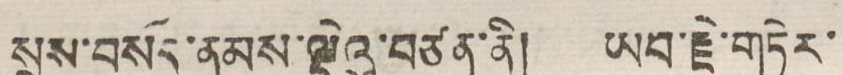སྲས་བསོད་ནམས་ལྡེའུ་བཙན་ནི། ཡབ་རྗེ་གཏེར་
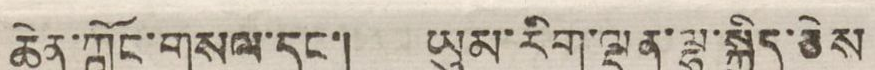ཆེན་ཀློང་གསལ་དང་། ཡུམ་རིག་ལྡན་ལྷ་སྐྱིད་ཅེས
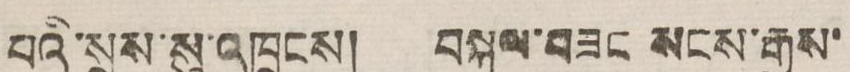པའི་སྲས་སུ་འཁྲུངས། བསྐལ་བཟང སངས་རྒྱས་
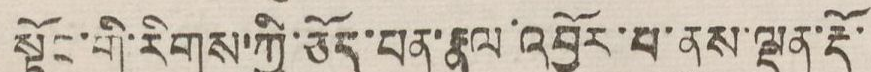སྟོང་གི་རིགས་ཀྱི་ཅོད་པན་རྣལ་འབྱོར་པ་ནུས་ལྡན་རྡོ་
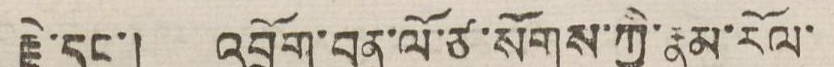རྗེ་དང་། འབྲོག་བན་ལོ་ཙ་སོགས་ཀྱི་རྣམ་རོལ་
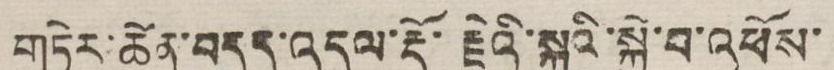གཏེར་ཆེན་བདུད་འདུལ་རྡོ་རྗེའི་སྐུའི་སྐྱེ་བ་འཕོས་
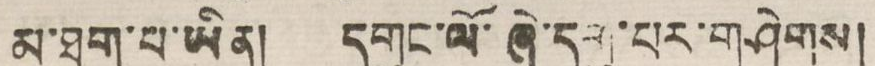མ་ཐག་པ་ཡིན། དགུང་ལོ་ཞེ་དགུ་པར་གཤེགས།
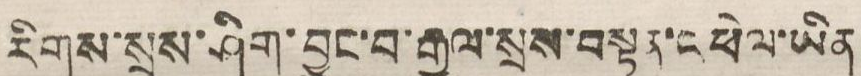རིགས་སྲས་ཤིག་བྱུང་བ་རྒྱལ་སྲས་བསྟན་འཕེལ་ཡིན
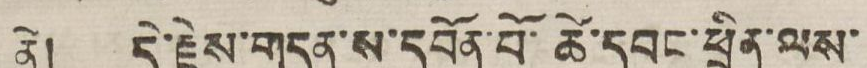ནེ། དེ་རྗེས་གདན་ས་དཔོན་པོ་ཚེ་དབང་ཕྲིན་ལས་
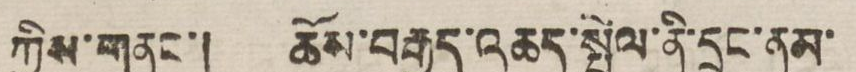ཀྱིས་གནང་། ཆོས་བརྒྱད་འཆད་སྤེལ་ནི་དྲུང་ནམ་
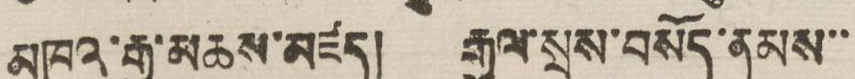མཁའ་རྒྱ་མཆས་མཛད། རྒྱལ་སྲས་བསོད་ནམས་་
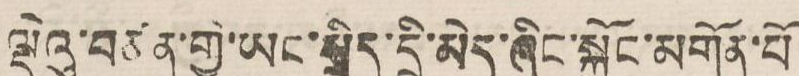ལྡེའུ་བཙན་གྱི་ཡང་སྲིད་དྲི་མེད་ཞིང་སྐྱོང་མགོན་པོ
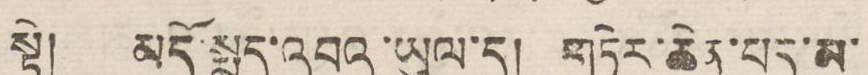སྟེ། མདོ་སྨན་འབའ་ཡུལ་དུ། གཏེར་ཆེན་པད་མ་
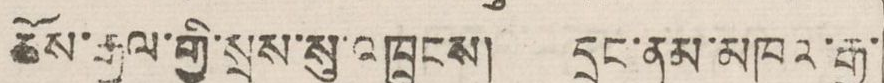ཆོས་རྒྱལ་གྱི་སྲས་སུ་འཁྲུངས། དྲུང་ནམ་མཁའ་རྒྱ་
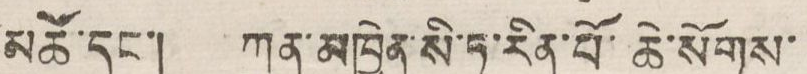མཚོ་དང་། ཀུན་མཁྱེན་སི་ཏུ་རིན་པོ་ཆེ་སོགས་
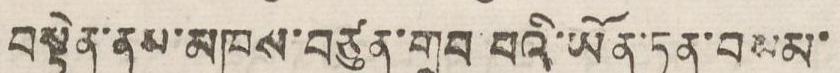བསྟེན་མན་མཁས་བཙུན་གྲུབ་པའི་ཡོན་ཏན་བསམ་
